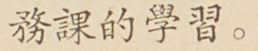務課的學習。
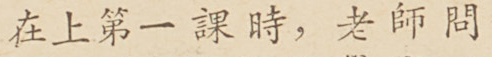在上第一課時，老師問
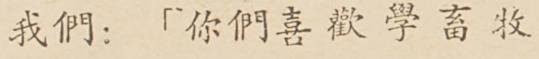我們：「你們喜歡學畜牧
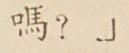嗎？」
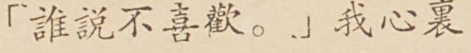「誰說不喜歡。」我心裏
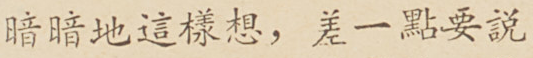暗暗地這樣想，差一點要說
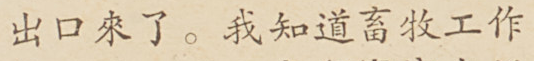出口來了。我知道畜牧工作
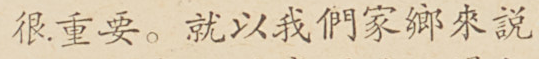很重要。就以我們家鄉來說
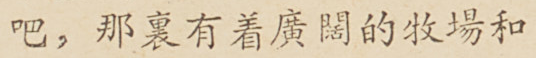吧，那裏有着廣闊的牧場和
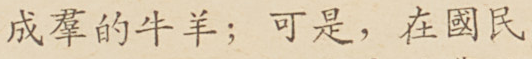成羣的牛羊；可是，在國民
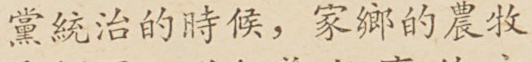黨統治的時候，家鄉的農牧
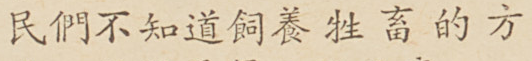民們不知道飼養牲畜的方
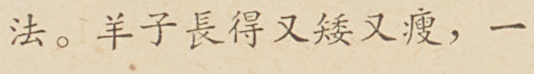法。羊子長得又矮又瘦，一
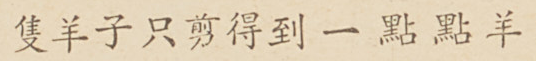隻羊子只剪得到一點點羊
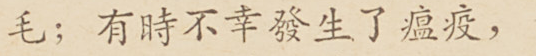毛；有時不幸發生了瘟疫，
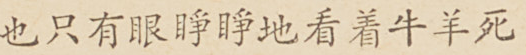也只有眼睜睜地看着牛羊死
